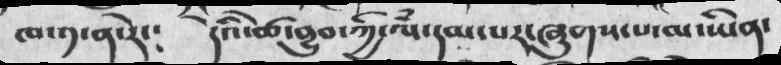ཁ་༡་ན་རེ་༴  དའི་ཚེ་བྱུབ་ཀྱི་ལཾ་དམ་པར་ཞུགས་པ་མ་ཡིན་
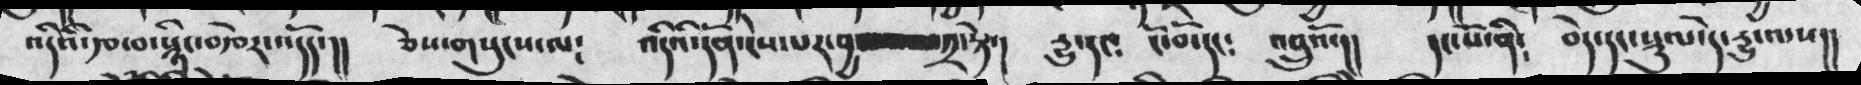འདིའི་རྩ་བ་སྙིང་བརྩེར་འདོད་།།  ཅེས་གསུངས་ལ༴  འདིའི་དོན་ངེས་པར་བྱ   ༢་སྟེ་།   དྱུ་དང༴  ངོ་བོ་དང༴  འབྲུའོ་།།  དང་པོ་ནི༴  བདེ་དང་སྡུལ་དེ་དྱུ་ལས།།
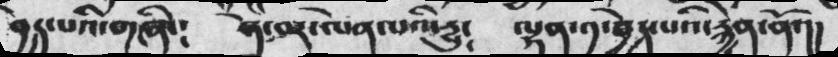བྱེད་པའི་གཞི༴  ཉེ་བར་ལེན་པའི་དྱུ༴  ལྷན་༡་བྱེད་པའི་རྐྱེན་ནོ་།།
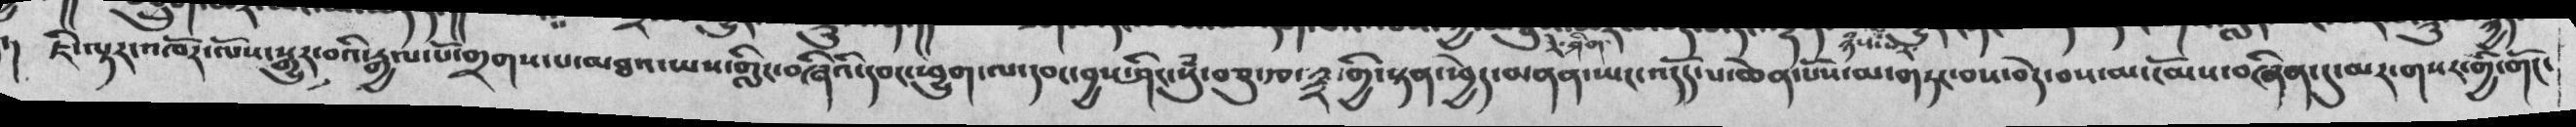།   ཇི་ལྟར་འཁོར་ལོས་སྒྱུར་བའི་རྒྱལ་པོ་གྲགས་པ་མཐའ་ཡས་གླིང་བཞིའི་དབང་ཕྱུག་ལ་དབང་བྱས་ཤིང་སུཾ་བཅུ་རྩ་༣་གྱི་སྟན་ཕྱེད་མནན་ཡང་འདོད་པ་ཆེན་པོས་མ་གཏང་བས་བདེ་བས་མ་ངོམས་བཞིན་དུ་མར་གསར་གྱི་གོང་
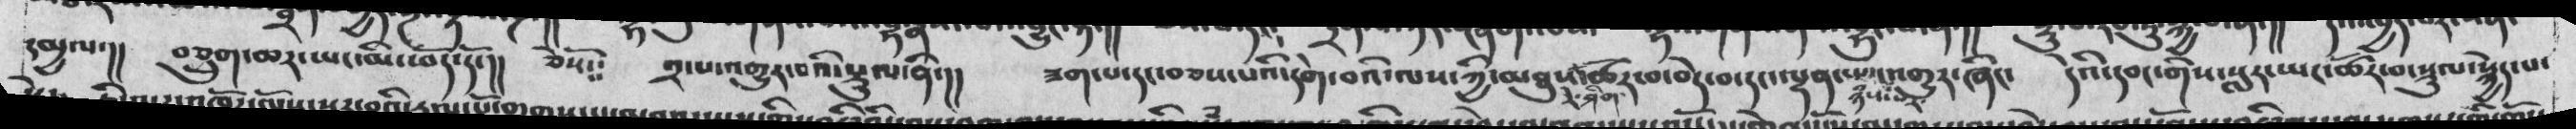དམྱལ་།།  བཅྲུག་ཆར་ཡང་མི་ཕོད་དོ་།།  ཅེསོ༴༴  ༢་པ་འགྱུར་པའི་སྡུལ་ནི་།།  ཟག་པ་དང་བཅས་པའི་དགེ་བའི་ལས་ཀྱི་མཐུས་༣་ཤིག་ཚོར་བ་བདེ་བ་དང་ལྡན་ཡང་ཉཾས་པར་འགྱུར་ཞིང་  དེའི་དབང་གིས་སླར་ཡང་ཚོར་བ་སྡུལ་སྐྱེད་པ་
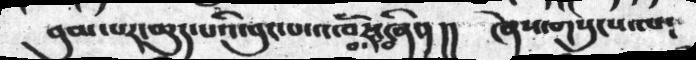བུམ་པར་ཆུད་པའི་བུང་པ་འཁོར་བ་བཞིན།།  ཞེས་གསུངས་ལ༴
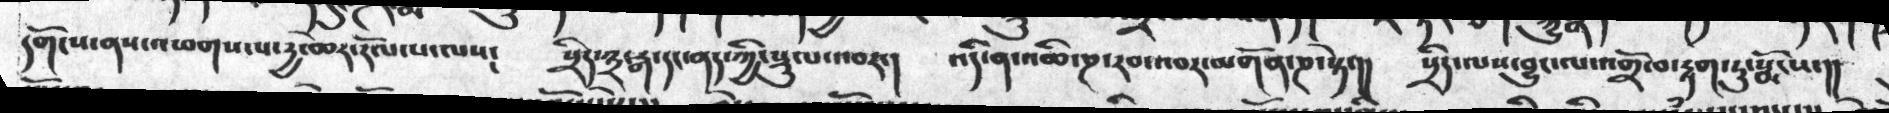དགོངས་ནས་འཕགས་པ་དྱ་ཆེར་རོལ་པ་ལས༴  སྲིད་༣་རྒ་དང་ནད་ཀྱི་སྡུལ་འབར་།  འདི་ན་འཆི་ཎ་རབ་འབར་མགོན་ཎ་སྟེ་།།  སྲིད་ལས་བྱུང་ལ་འགྲོ་བ་རྟག་ཏུ་སྨོངས་།།
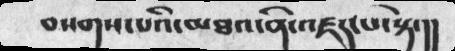བསགས་པའི་མཐའ་ནི་འཛད་པ་སྟེ་།།
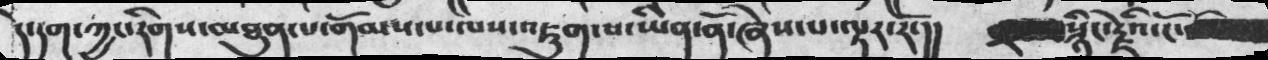དེ་དག་ཀྱང་རིགས་མཐུན་པ་གོམས་པ་ལ་འཇུག་པ་ཡིན་ནོ་ཞེས་པ་ལྟར་རོ་།།   སྙིང་རྗེའི་ངོ་
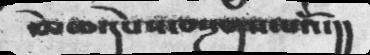ཆེ་ཆ་དཔེས་བསྔགས་པའོ་།།
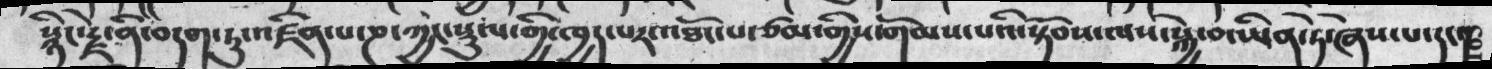སྙིང་རྗེ་ནི་བདག་ཏུ་འཛིན་པ་ཎ་ཀྱང་སྡུལ་གྱི་ཁྱད་པར་འཐོང་པ་ཙམ་གྱིས་གོམས་པའི་སྟོབས་ལས་སྐྱེ་བ་ཡིན་ཏེ་ཞེས་པ་དང་
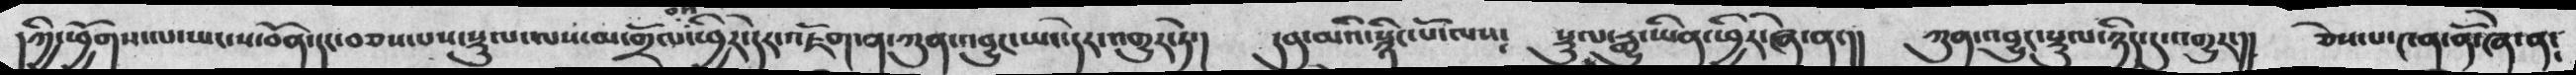/།ཀྱི་ཕྱོགས་ལ་ཡང་ས་བོན་དང་བཅས་པས་སྡུལ་ལས་མ་གྲོལ་ཕྱིར་དེར་འཇོག་ན་ཀུན་འབྱུང་ཡང་དེར་འགྱུར་ཏེ་།   དབུ་མའི་སྙིང་པོ་ལས་   སྡུལ་རྒྱུ་ཡིན་ཕྱིར་ཞེ་ན་།།   ཀུན་འབྱུང་སྡུལ་ཉིད་དུ་འགྱུར་།།   ཅེས་པ་༤ན་ནོ་ཞེ་ན༴
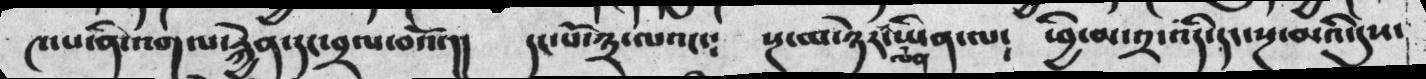༤་པ་ནི་འགལ་རྒྱེན་དང་བྲལ་བའོ་།།   དང་པོ་༣་ལའང་༴   སྔ་མ་ཉེར་ལན་ཡིན་ལ༴   ཕྱི་མ་༢་འདི་དང་སྔ་མའི་དུས་
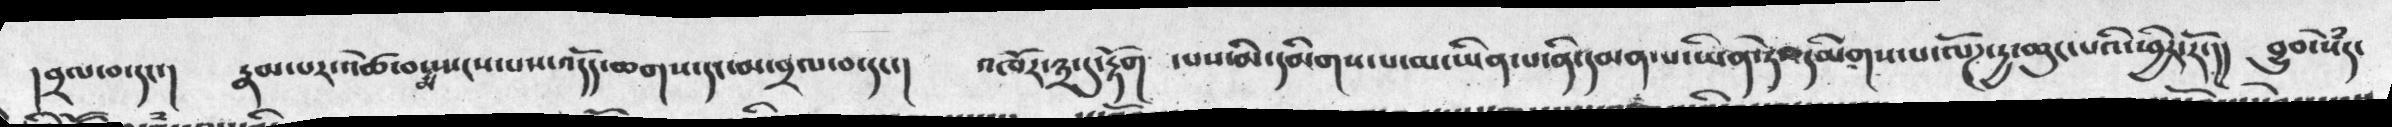།བྲལ་བ་དང་།  རྣམ་པར་འཚེ་བ་མ་སྤངས་པས་འདོད་ཆགས་དང་མ་བྲལ་བ་དང་།   འཁོར་༣་དུ་རྟོག  ་པས་མི་དམིགས་པ་མ་ཡིན་པ་ནི་དམན་པ་ཡིན་ཏེ་དམིགས་པ་ལོཌ་དྱ་ཆུང་པའི་ཕྱིར་།།  བྱུབ་སེཾད་
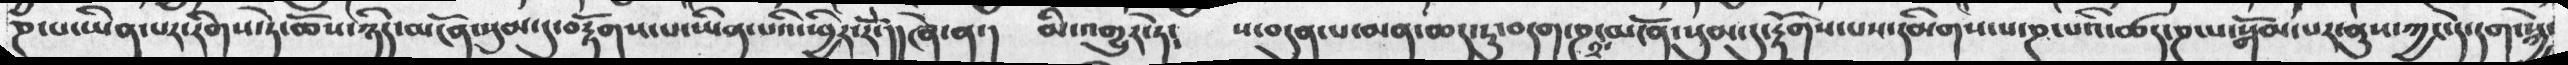ཎ་པ་ཡིན་པར་རིགས་ཏེ་ཆོས་ཉིད་མངོན་སུམ་དུ་བརྟོགས་པ་ཡིན་པའི་ཕྱིར་རོ་།།ཞེ་ན་།  མི་འགྱུར་ཏེ༴  ས་བདུན་པ་མན་ཆད་ཏུ་བདག་ཎ་༢་མངོན་སུམ་དུ་རྟོགས་པས་དམིགས་པ་ཎ་པའི་ཚད་ཎ་པ་སྒོམ་པར་ནུས་ཀྱང་དེ་དག་སྐྱེ་
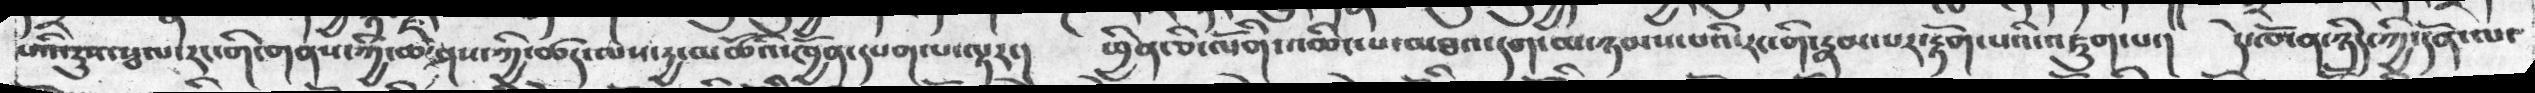པའི་རུས་སྦལ་རང་གི་གནས་ཀྱི་ཆ་ཤས་ཀྱི་ཚད་ལས་དྱ་མཚོའོ་ཁྱོན་དཔག་པ་ལྟར་།  ཕྱིན་ཅི་ལོགི་འཆིང་པ་མཐའ་དག་མ་ཉམས་པའི་རང་གི་རྣམ་པར་རྟོག་པའི་འཇུག་པ་།  དེ་ཁོ་ན་ཉིད་ཀྱི་དོན་ལ་
